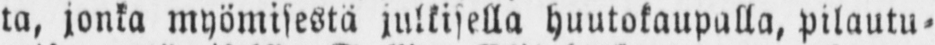ta, jonka myömisestä julkisella huutokaupalla, pilautu-
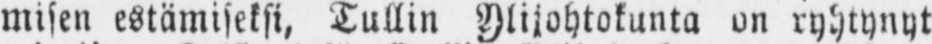misen estämiseksi, Tullin Ylijohtokunta on ryhtynyt
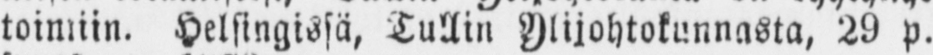toimiin. Helsingissä, Tullin Ylijohtokunnasta, 29 p.
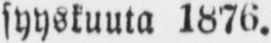syyskuuta 1876.
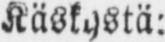Käskystä:
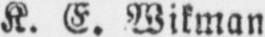K. E. Wikman
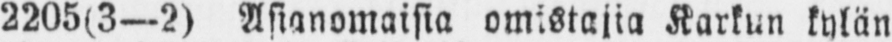2205(3—2) Asianomaisia omistajia Karkun kylän
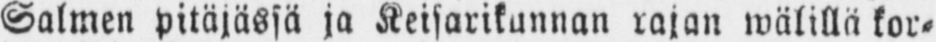Salmen pitäjässä ja Keisarikunnan rajan wälillä kor-
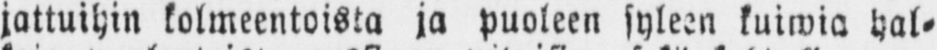jattuihin kolmeentoista ja puoleen syleen kuiwia hal-
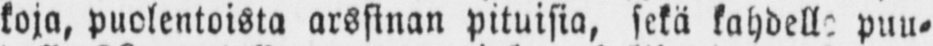koja, puolentoista arssinan pituisia, sekä kahdelle puu-
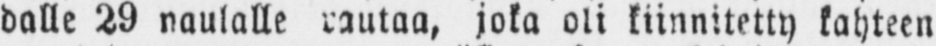dalle 29 naulalle rautaa, joka oli kiinnitetty kahteen
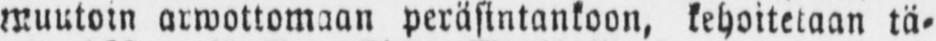muutoin arwottomaan peräsintankoon, kehoitetaan tä-
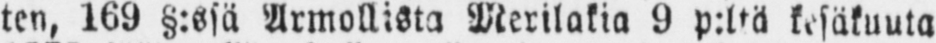ten, 169 §:ssä Armollista Merilakia 9 p:ltä kesäkuuta
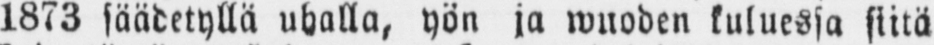1873 säädetyllä uhalla, yön ja wuoden kuluessa siitä
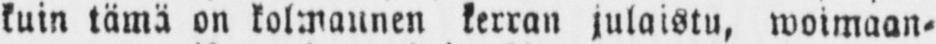kuin tämä on kolmannen kerran julaistu, woimaan-
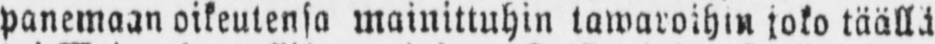panemaan oikeutensa mainittuhin tawaroihin joko täällä
